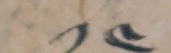༡༤
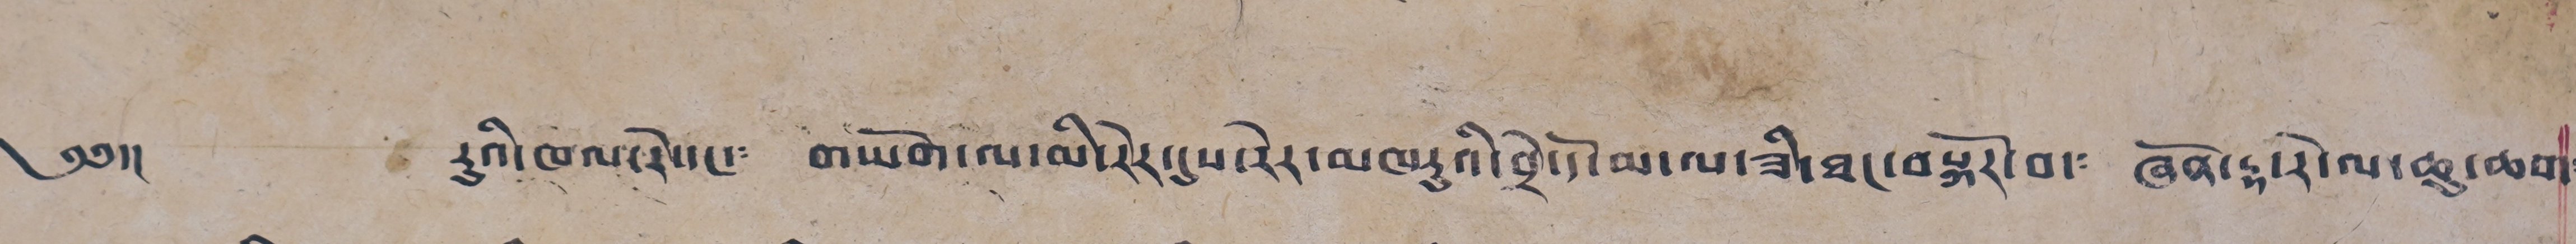༄༅།། རུའི་ཁལ་རེ་དང་༴ གཡོག་ལ་མི་རེར་དུས་རེར་མཁརུའི་བྲེ་དོ་མ་ལ་ཟི་ཐང་བསྐོར་བ་༴ ཞོན་རྟ་རེ་ལ་ཆུ་ཆག༴
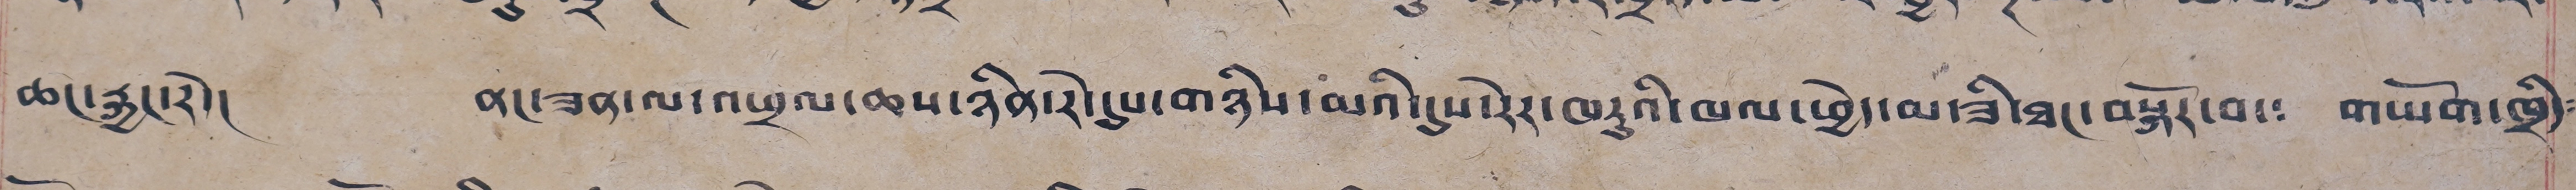ཆང་རྐྱང་རེ་། ནང་ཟན་ལ་འཕྲལ་ཆས་ཉིན་རེ་དུས་གཉིས་མའི་དུས་རེར་མཁརུའི་ཁལ་ཕྱེད་མ་ཟི་ཐང་བསྐོར་བ་༴ གཡོག་ཁྲིད༴
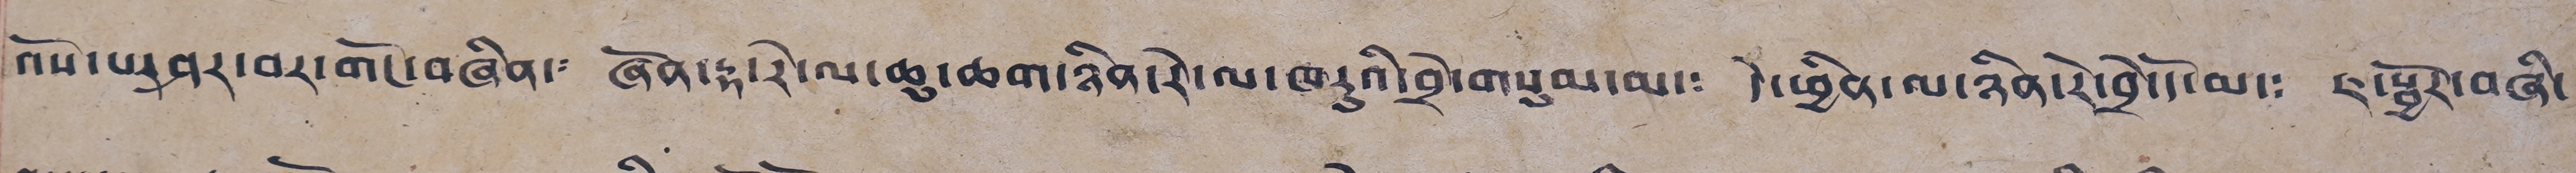འོས་པར་ཤར་བར་གོང་བཞིན་༴ ཞོན་རྟ་རེ་ལ་ཆུ་ཆག་ཉིན་རེ་ལ་ཁརུའི་བྲེ་གསུམ་མ་༴ དེ་ཕྱིན་ལ་ཉིན་རེ་བྲེ་དོ་མ་༴ ཇ་སྦྱོར་བཞི་
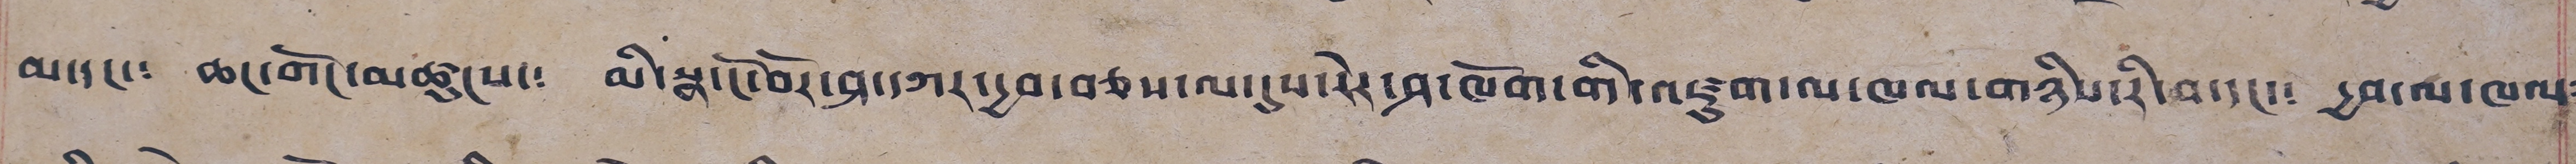མ་དང་༴ ཆང་གོང་མཚུངས་༴ མི་སྣ་ངོ་བོར་ཤ་དཀར་དྱབ་བཅས་ལ་དུས་རེར་ཤ་ཁོག་གི་འཛུག་ལ་ཁལ་གཉིས་རི་བ་དང་༴ དྱབ་ལ་ཁལ༴
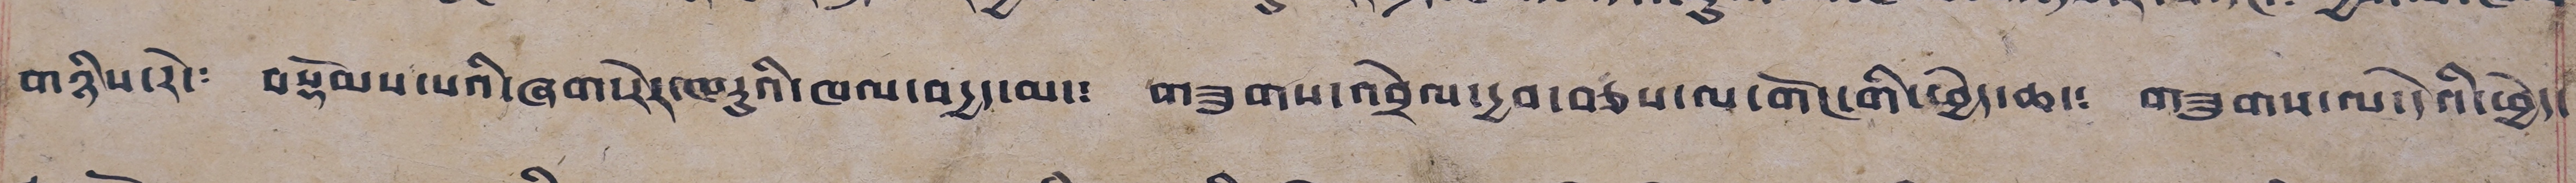གཉིས་རེ་༴ བསྡོམས་པའི་ཞག་རེར་ཁརུའི་ཁལ་བདྱད་མ་༴ གཟུགས་འབྲེལ་དྱབ་བཅས་ལ་གོང་གི་ཕྱེད་ཆད་༴ གཟུགས་ལ་དེའི་ཕྱེད་
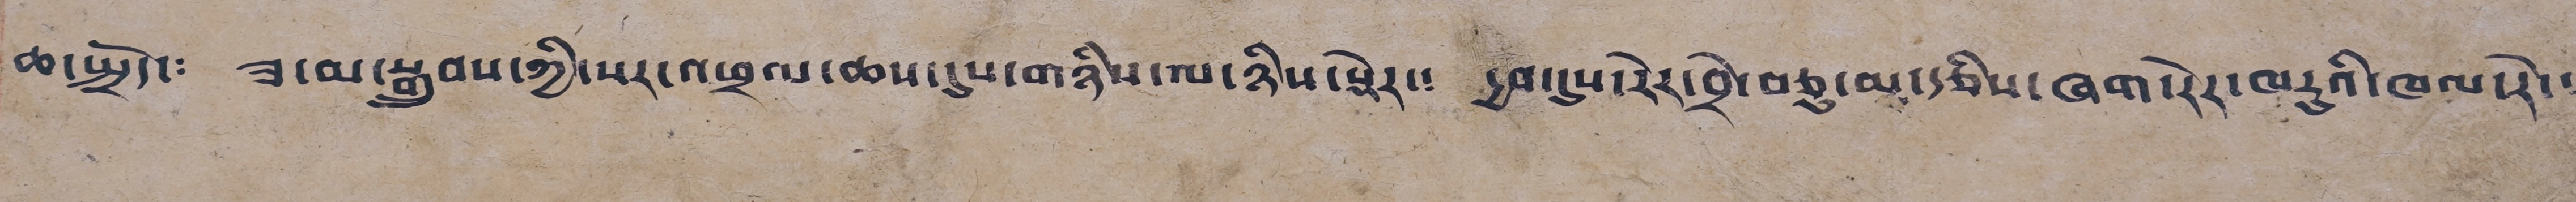ཆ་སྤྲོད་༴ ཟ་མ་སྒྲུབས་ཀྱི་སར་འཕྲལ་ཆས་དུས་གཉིས་ལ་ཉིས་སྟེར་༴ དྱབ་དུས་རེར་བྲེ་བཅུ་མ་རྩིས་ཞག་སེར་ཁརུའི་ཁལ་རེ་༴
